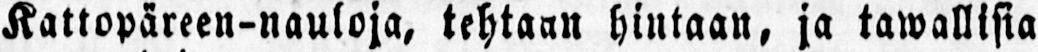Kattopäreen-nauloja, tehtaan hintaan, ja tawallisia
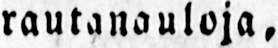rautanauloja,
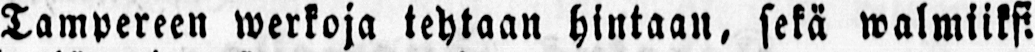Tampereen werkoja tehtaan hintaan, sekä walmiiksi
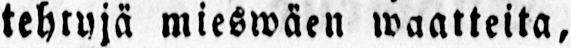tehtyjä mieswäen waatteita,
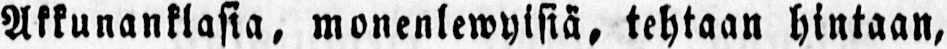Akkunanklasia, monenlewyisiä, tehtaan hintaan,
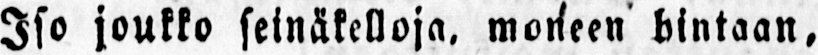Iso joukko seinäkelloja, moneen hintaan,
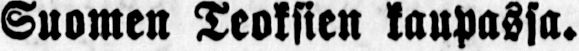Suomen Teoksien kaupassa.
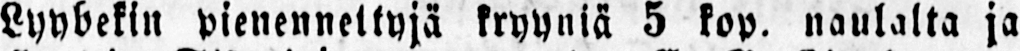Lyybekin pienennettyjä kryyniä 5 kop. naulalta ja
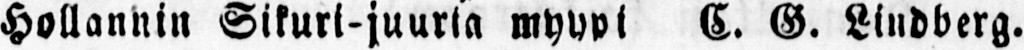Hollannin Sikuri-juuria myypi C. G. Lindberg.
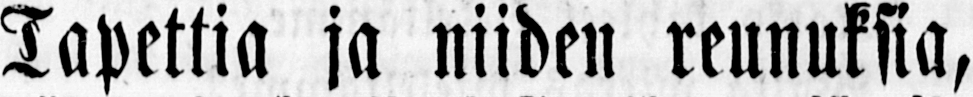Tapettia ja niiden reunuksia,
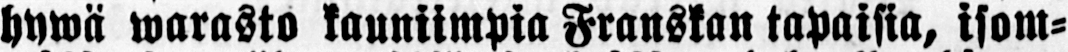hywä warasto kauniimpia Franskan tapaisia, isom-
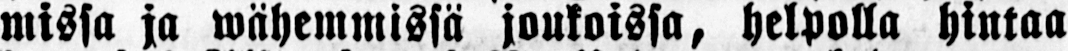missa ja wähemmissä joukoissa, helpolla hintaa
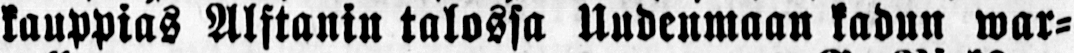kauppias Alftanin talossa Uudenmaan kadun war-
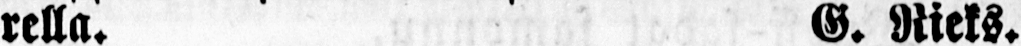rella. G. Rieks.
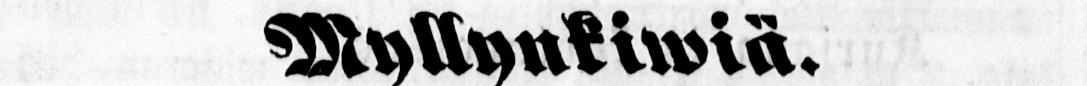Myllynkiwiä.
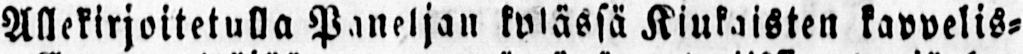Allekirjoitetulla Paneljan kylässä Kiukaisten kappelis-
